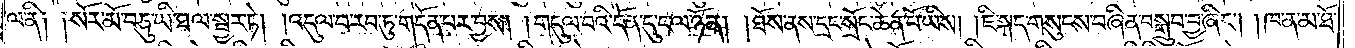ལ་ནི༑ ༑སོར་མོ་བཅུ་ཡི་ཐལ་སྦྱར་ཏེ། །འདུལ་བ་རབ་ཏུ་གདོན་པར་བྱས། །གདུལ་བའི་དོན་དུ་ང་ལ་ཉོན། །ཐོས་ནས་དྲང་སྲོང་ཆེན་པོ་ཡིས། །ཇི་སྐད་གསུངས་བཞིན་བསྒྲུབ་བྱ་ཞིང༌། །ཁ་ན་མ་ཐོ་
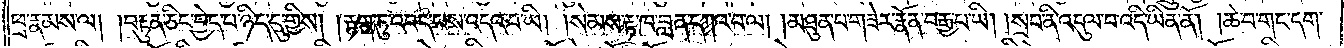ཕྲ་རྣམས་ལ། །བརྟུན་ཅིང་བྱེད་པ་ཉིད་དུ་གྱིས། །རྟག་ཏུ་འབད་པས་འདའ་བ་ཡི། །སེམས་རྟ་ཁ་བླན་དཀའ་བ་ལ། །མཐུན་པ་གཟེར་རྣོན་བརྒྱ་པ་ཡི། །སྲབ་ནི་འདུལ་བ་འདི་ཡིན་ནོ། །ཆེ་བ་གང་དག་
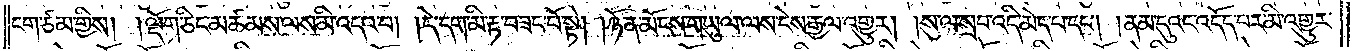ངག་ཙམ་གྱིས། །ལྡོག་ཅིང་མཚམས་ལས་མི་འདའ་བ། །དེ་དག་མི་རྟ་བཟང་པོ་སྟེ། །ཉོན་མོངས་གཡུལ་ལས་ངེས་རྒྱལ་འགྱུར། །སུ་ལ་སྲབ་འདི་མེད་པ་དང༌། །ནམ་དུའང་འདོད་པར་མི་འགྱུར་
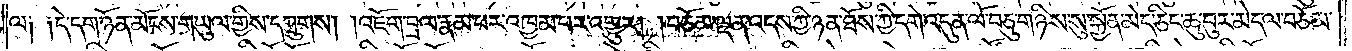ལ༑ ༑དེ་དག་ཉོན་མོངས་གཡུལ་གྱིས་དཀྲུགས། །འཇོག་བྲལ་རྣམ་པར་འཁྱམ་པར་འགྱུར། །བཅོམ་ལྡན་འདས་ཀྱི་ཉན་ཐོས་ཀྱི་དགེ་འདུན་ལོ་བཅུ་གཉིས་སུ་སྐྱོན་མེད་ཅིང་ཆུ་བུར་མེད་ལ་བཅོམ་
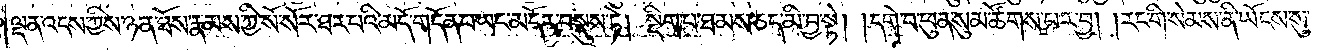ལྡན་འདས་ཀྱིས་ཉན་ཐོས་རྣམས་ཀྱི་སོ་སོར་ཐར་པའི་མདོ་གདོན་པ་ཡང་མདོར་བསྡུས་ཏེ། སྡིག་པ་ཐམས་ཅད་མི་བྱ་སྟེ། །དགེ་བ་ཕུན་སུམ་ཚོགས་པར་བྱ། །རང་གི་སེམས་ནི་ཡོངས་སུ་
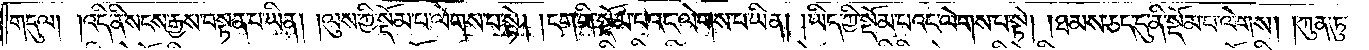གདུལ། །འདི་ནི་སངས་རྒྱས་བསྟན་པ་ཡིན། །ལུས་ཀྱི་སྡོམ་པ་ལེགས་པ་སྟེ། །ངག་གི་སྡོམ་པའང་ལེགས་པ་ཡིན། །ཡིད་ཀྱི་སྡོམ་པའང་ལེགས་པ་སྟེ། །ཐམས་ཅད་དུ་ནི་སྡོམ་པ་ལེགས། །ཀུན་ཏུ་
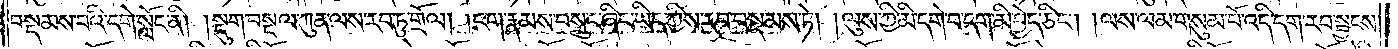བསྡམས་པའི་དགེ་སློང་ནི། །སྡུག་བསྔལ་ཀུན་ལས་རབ་ཏུ་གྲོལ། །ངག་རྣམས་བསྲུང་ཞིང་ཡིད་ཀྱིས་རབ་བསྡམས་ཏེ། །ལུས་ཀྱི་མི་དགེ་བ་དག་མི་བྱེད་ཅིང༌། །ལས་ལམ་གསུམ་པོ་འདི་དག་རབ་སྦྱངས་
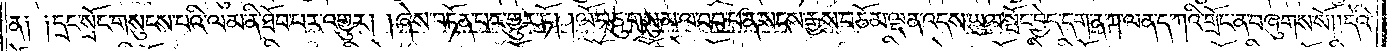ན༑ ༑དྲང་སྲོང་གསུངས་པའི་ལམ་ནི་ཐོབ་པར་འགྱུར། །ཞེས་བཏོན་པར་གྱུར་ཏོ། །ལོ་བཅུ་གསུམ་ལ་བབ་པ་ན་སངས་རྒྱས་བཅོམ་ལྡན་འདས་ཡུལ་སྤོང་བྱེད་དག་ན་ཀ་ལན་ད་ཀའི་གྲོང་ན་བཞུགས་སོ། །དེའི་
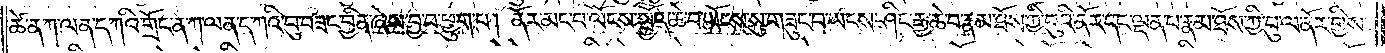ཚེ་ན་ཀ་ལན་ད་ཀའི་གྲོང་ན་ཀ་ལན་ད་ཀའི་བུ་བཟང་བྱིན་ཞེས་བྱ་བ་ཕྱུག་པ། ནོར་མང་བ་ལོངས་སྤྱོད་ཆེ་བ་ཡོངས་སུ་གཟུང་བ་ཡངས་ཤིང་རྒྱ་ཆེ་བ་རྣམ་ཐོས་ཀྱི་བུའི་ནོར་དང་ལྡན་པ་རྣམ་ཐོས་ཀྱི་བུ་ལ་ནོར་གྱིས་
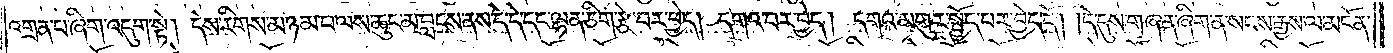འགྲན་པ་ཞིག་འདུག་སྟེ། དེས་རིགས་མཉམ་པ་ལས་ཆུང་མ་བླངས་ནས་དེ་དེ་དང་ལྷན་ཅིག་རྩེ་བར་བྱེད། དགའ་བར་བྱེད། དགའ་མགུར་སྤྱོད་པར་བྱེད་དོ། །དེ་དུས་གཞན་ཞིག་ན་སངས་རྒྱས་ལ་མངོན་
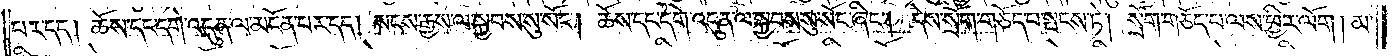པར་དད། ཆོས་དང་དགེ་འདུན་ལ་མངོན་པར་དད། སངས་རྒྱས་ལ་སྐྱབས་སུ་སོང༌། ཆོས་དང་དགེ་འདུན་ལ་སྐྱབས་སུ་སོང་ཞིང༌། དེས་སྲོག་གཅོད་པ་སྤངས་ཏེ། སྲོག་གཅོད་པ་ལས་ཕྱིར་ལོག །མ་
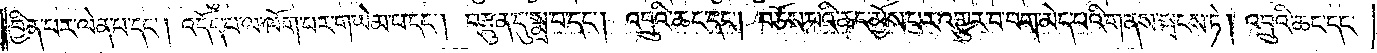བྱིན་པར་ལེན་པ་དང༌། འདོད་པ་ལ་ལོག་པར་གཡེམ་པ་དང༌། བརྫུན་དུ་སྨྲ་བ་དང༌། འབྲུའི་ཆང་དང༌། བཅོས་པའི་ཆང་མྱོས་པར་འགྱུར་བ་བག་མེད་པའི་གནས་སྤངས་ཏེ། འབྲུའི་ཆང་དང་
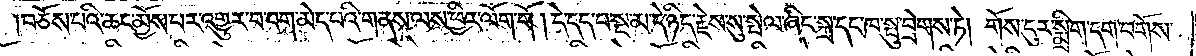།བཅོས་པའི་ཆང་མྱོས་པར་འགྱུར་བ་བག་མེད་པའི་གནས་ལས་ཕྱིར་ལོག་གོ །དེ་དད་པ་སྔ་མ་དེ་ཉིད་རྗེས་སུ་སྤེལ་ཞིང་སྐྲ་དང་ཁ་སྤུ་བྲེགས་ཏེ། གོས་ངུར་སྨྲིག་དག་བགོས་
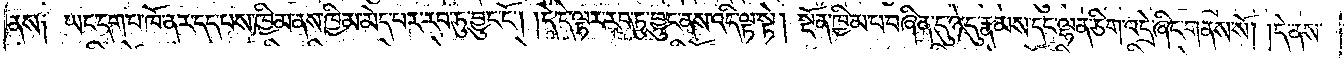ནས༑ ཡང་དག་པ་ཁོ་ནར་དད་པས་ཁྱིམ་ནས་ཁྱིམ་མེད་པར་རབ་ཏུ་བྱུང་ངོ༌། །དེ་དེ་ལྟར་རབ་ཏུ་བྱུང་ནས་འདི་ལྟ་སྟེ། སྔོན་ཁྱིམ་པ་བཞིན་དུ་ཉེ་དུ་རྣམས་དང་ལྷན་ཅིག་འདྲེ་ཞིང་གནས་སོ། །དེ་ནས་
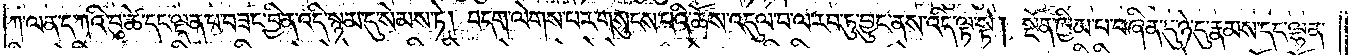ཀ་ལན་ད་ཀའི་བུ་ཚེ་དང་ལྡན་པ་བཟང་བྱིན་འདི་སྙམ་དུ་སེམས་ཏེ། བདག་ལེགས་པར་གསུངས་པའི་ཆོས་འདུལ་བ་ལ་རབ་ཏུ་བྱུང་ནས་འདི་ལྟ་སྟེ། སྔོན་ཁྱིམ་པ་བཞིན་དུ་ཉེ་དུ་རྣམས་དང་ལྷན་
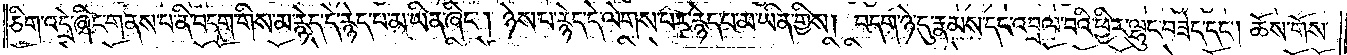ཅིག་འདྲེ་ཞིང་གནས་པ་ནི་བདག་གིས་མ་རྙེད་དེ་རྙེད་པ་མ་ཡིན་ཞིང༌། ཉེས་པ་རྙེད་དེ་ལེགས་པར་རྙེད་པ་མ་ཡིན་གྱིས། བདག་ཉེ་དུ་རྣམས་དང་འབྲལ་བའི་ཕྱིར་ལྷུང་བཟེད་དང༌། ཆོས་གོས་
